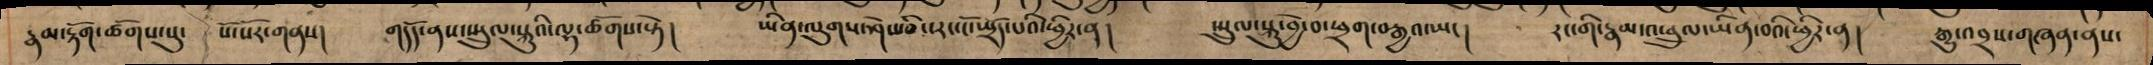རྣམ་རྟོག་ཚོགས་སུ་ སོ་སོར་གནས། གདོད་ནས་སྤྲུལ་སྐུའི་ལྷ་ཚོགས་སྟེ། ཡིན་ལུགས་ཤེས་ཅིང་རང་ངོ་སྤྲོད་པའི་ཕྱིར་ན། སྤྲུལ་སྐུ་བྱེ་བ་ཕྲག་བརྒྱའ་ཡང། རང་གི་རྣམ་འཕྲུལ་ཡིན་བའི་ཕྱིར་ན། རྒྱུ་འབྲས་གཞན་ནས་
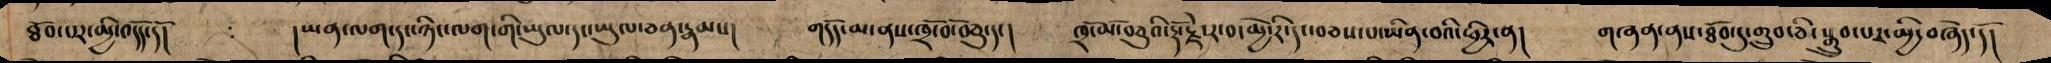ཐོབ་པར་མྱི་འདོད་དོ། །ཡན་ལག་དང་ཉིང་ལག་གི་ཡུལ་དང་ཡུལ་ཅན་རྣམས། གདོད་མ་ནས་ཁྲོ་བོ་བཅུ་དང། ཁྲོ་མོ་བཅུའི་རྡོ་རྗེ་ར་བ་མྱེ་རི་དང་བཅས་པ་ཡིན་བའི་ཕྱིར་ན། གཞན་ནས་ཐོབ་དུ་གྲུབ་ཅི་སྒྲུབ་པར་མྱི་བཞེད་དོ།
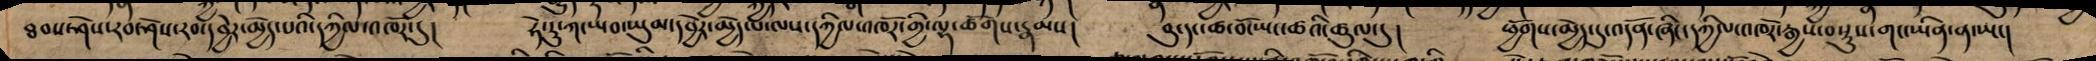ཐབས་ཤེས་རབ་ཤེས་དབྱེར་མྱེད་པའི་དཀྱིལ་འཁོར་དུ། ཧེ་རུ་ཀ་ཡབ་ཡུམ་དབྱེར་མྱེད་པ་ལས་དཀྱིལ་འཁོར་གྱི་ལྷ་ཚོགས་རྣམས། བུ་དང་ཚ་བོ་ཡང་ཚའི་ཚུལ་དུ། ཕྱོགས་མྱེད་དུ་འདོན་ཞིང་དཀྱིལ་འཁོར་རྒྱས་བསྡུས་གང་ཡིན་ན་ཡང།
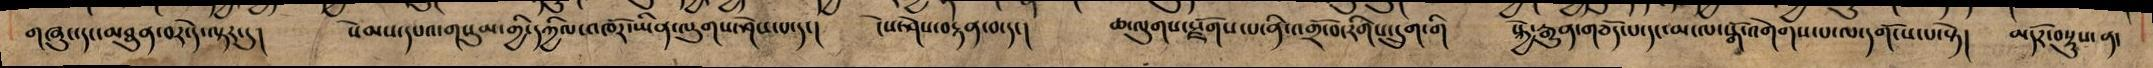གཞུང་དང་མཐུན་བར་དེ་ལྟར་དུ། སེམས་དཔའ་གསུམ་གྱི་དཀྱིལ་འཁོར་ཡིན་ལུགས་ཤེས་པ་དང། ངེས་ཤེས་བརྟན་བ་དང། ཆ་ལུགས་སྫོགས་པ་ནི་འགྲོ་བ་རིགས་དྲུག་གི སྐྱེ་རྒྱུན་གཅོད་པ་དང་མ་ལ་སྒོ་འགེགས་པ་ལ་དགོངས་པ་སྟེ། མདོར་བསྡུས་ན་
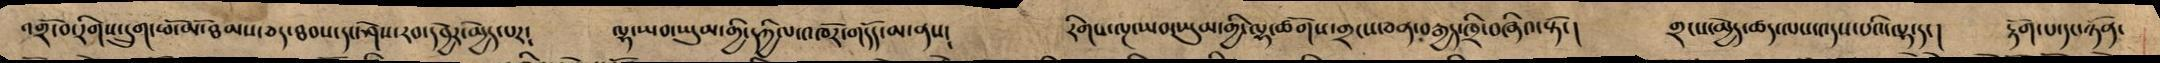འགྲོ་བ་རིགས་དྲུག་ཕོ་མོ་ཐམས་ཅད་དང་ཤེས་རབ་དབྱེར་མྱེད་པར། ལྷ་ཡབ་ཡུམ་གྱི་དཀྱིལ་འཁོར་གདོད་མ་ནས། རིགས་ལྔ་ཡབ་ཡུམ་གྱི་ལྷ་ཚོགས་གྲངས་ཅན་བརྒྱད་ཁྲི་བཞིའ་སྟོང། གྲངས་མྱེད་ཚད་ལས་འདས་པའི་ལྷ་དང། རྟོག་པ་དང་ཉོན་
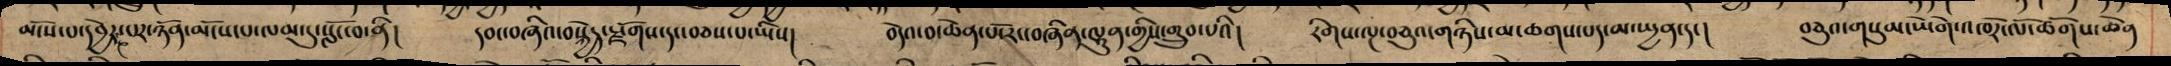མོངས་པ་དབྱེར་པར་ཉོན་མོངས་པ་ལམ་དུ་སློང་བ་ནི། དབང་བཞིའ་བསྐྱེད་སྫོགས་དང་བཅས་པ་ཡིས། བདེའ་བ་ཆེན་པོ་རང་བཞིན་ལྷུན་གྱིས་གྲུབ་པའི། རིགས་ལྔ་བཅུའ་གཉིས་མ་ཆགས་པད་མ་སྤྱན་དང། བཅུའ་གསུམ་ཡེགེ་འཁོར་ལོ་ཚོགས་ཆེན
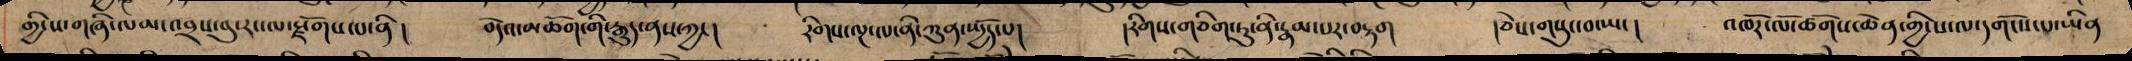གྱི་ས་གཞི་ལམ་འབྲས་བུ་རང་ལ་སྫོགས་པ་ནི། བདེའ་མཆོག་གི་རྒྱུད་ནས་ཀྱང། རིགས་ལྔ་ལ་ནི་ཀུན་སྤྱོད་པ། །རིགས་གཅིག་ཏུ་ནི་རྣམ་པར་བརྟག །ཅེས་གསུང་བ་ཡང། འཁོར་ལོ་ཚོགས་ཆེན་གྱི་ས་ལ་དགོངས་པ་ཡིན
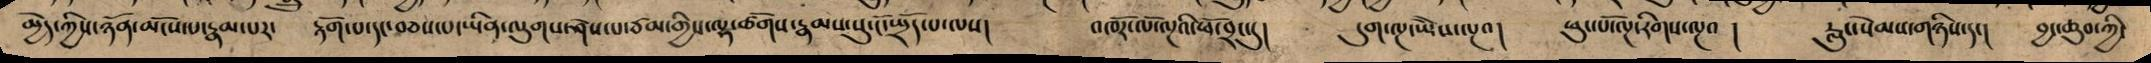མྱེད་ཀྱིས་ཉོན་མོངས་པ་རྣམ་པར་ རྟོག་པ་དང་བཅས་པ་ཡིན་ལུགས་ཤེས་པ་ཙམ་གྱིས་ལྷ་ཚོགས་རྣམས་སུ་སྤྲོད་པ་ལས། འཁོར་ལོ་ལྔའི་ཕོ་བྲང་དུ། དུག་ལྔ་ཡཻས་ལྔའ། ཕུང་པོ་ལྔ་རིགས་ལྔའ། རླུང་སེམས་གཉིས་དང། བྱང་ཆུབ་ཀྱི་
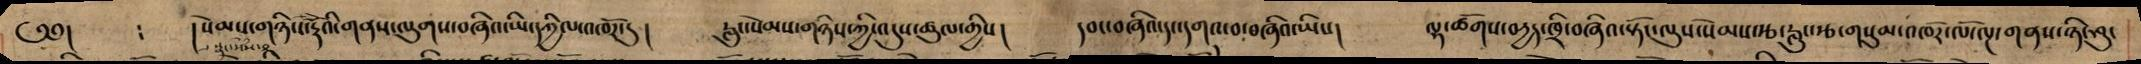༄༅། །སེམས་གཉིས་རྟའི་གནས་ལུགས་བཞིའ་ཡི་དཀྱིལ་འཁོར་དུ། རླུང་སེམས་གཉིས་ཀྱི་འདུས་ཚུལ་གྱིས། དབང་བཞིའ་དང་དགའ་བ་བཞིའ་ཡིས། ལྷ་ཚོགས་བརྱད་ཁྲི་བཞིའ་སྟོང་ལུས་སེམས་རྩ་རླུང་རྩ་གསུམ་འཁོར་ལོ་ལྔ་གནས་ཉི་ཤུ་
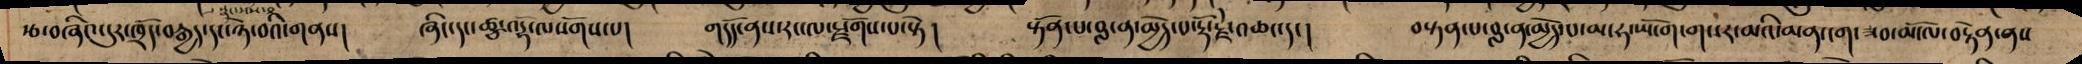རྩ་བཞིའ་དུར་ཁྲོད་བརྒྱད་དང་ཉེ་བའི་གནས།    ཞིང་དང་ཚུར་འདྷོ་ལསོགས་པ།   གདོད་ནས་རང་ལ་རྫོགས་པ་སྟེ།   སྟོན་པ་བླ་ན་མྱེད་པ་རྡོ་རྗེ་འཆང་དང།      བསྟན་པ་བླ་ན་མྱེད་པ་མ་ཧ་ཡོ་ག་གསར་མའི་མན་ངག་ཟབ་མོ་ལ་བརྟེན་ནས
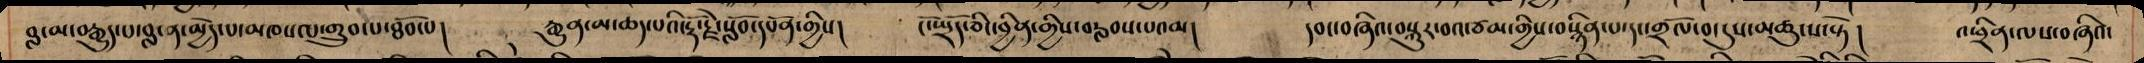བླ་མ་བརྒྱུད་པ་བླ་ན་མྱེད་པ་མཁའ་ལ་གྲུབ་པ་ཐོབ་པ། རྒྱུན་མ་ཆད་པའི་རྡོ་རྗེ་སློབ་དཔོན་གྱིས། ངོ་སྤྲོད་ཅིང་བྱིན་གྱིས་བརླབས་པའམ། དབང་བཞིའ་བསྐུར་བའ་ཙམ་གྱིས་བསྙིན་པ་དང་གྲོལ་བ་དུས་མཚུངས་སྟེ། འཕྲིན་ལས་བཞིའ་
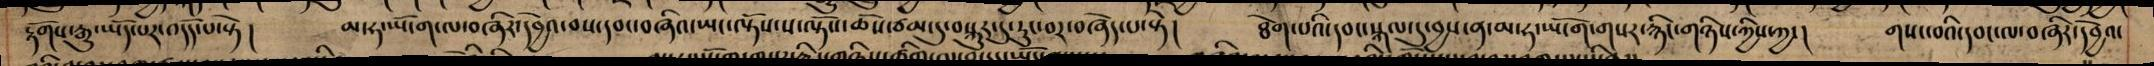རྟོགས་རྒྱུ་ཡོད་པར་འདོད་པ་སྟེ། མ་ཧ་ཡོ་ག་ལ་བཞིར་དབྱེའ་བས་དབང་བཞིའ་ཡང་ལྟོས་ས་ལྟོས་ཆོས་ཙམ་དུ་བསྐུར་དུ་རུང་བར་བཞེད་པ་སྟེ། ཐེག་པའི་དབང་སྐལ་དུ་བྱས་ན་མ་ཧ་ཡོ་ག་གསར་རྙིང་གཉིས་ཀྱིས་ཀྱང། གསང་བའི་དབང་ལ་བཞིར་དབྱེའ་
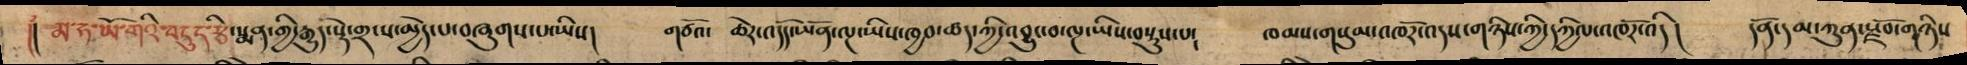།།  མ་ཧ་ཡོ་གའི་བདུད་རྩི་སྨན་གྱི་རྒྱུད་སྡེ་གྲངས་མྱེད་པ་བཞུགས་པ་ཡིས།   གཙོའ་ ཆེར་འདོད་ཡོན་ལྔ་ཡིས་ཁྱབ་ཚད་ཀྱི་འབྱུང་བ་ལྔ་ཡོས་བསྡུས་པ༴   ཁམས་གསུམ་འཁོར་འདས་གཉིས་ཀྱི་དཀྱིལ་འཁོར་འདི།   དོན་དམ་ཀུན་རྫོབ་གཉིས
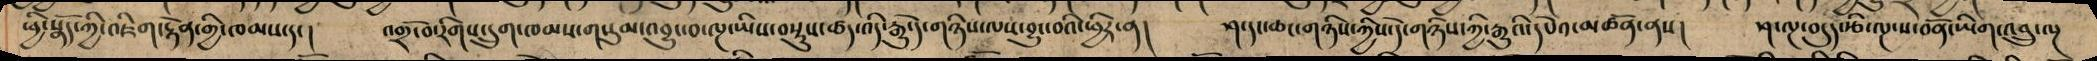ཕྱི་སྣོད་ཀྱི་འཇིག་རྟེན་གྱི་ཁམས་དང། འགྲོ་བ་རིགས་དྲུག་ཁམས་གསུམ་འབྱུང་བ་ལྔ་ཡིས་བསྡུས་ཚད་འདི་རྒྱུ་དེ་གཉིས་ལས་བྱུང་བའི་ཕྱིར་ན། ཤ་དང་ཆང་གཉིས་ཀྱིས་དེ་གཉིས་ཀྱི་རྒྱུའི་དཔེའ་མཚོན་ནས། ཤ་ལྔ་བདུད་རྩི་ལྔ་ས་བོན་ཡིག་འབྲུ་ལྔ
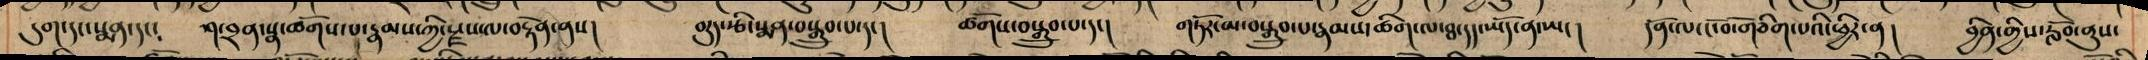དུག་དང་སྨན་དང༴ ཤ་བྲབ་སྣ་ཚོགས་པ་རྣམས་ཀྱི་སྫས་ལ་བརྟེན་ནས། བདུད་རྩི་སྨན་བསྒྲུབ་པ་དང། ཚོགས་བསྒྲུབ་པ་དང། གཏོར་མ་བསྒྲུབ་པ་རྣམས་ཚིག་ལ་ཐ་དད་ཡོད་ན་ཡང། དོན་ལ་ངོ་བོ་གཅིག་པའི་ཕྱིར་ན། བྱིན་གྱིས་རློབ་ནུས་
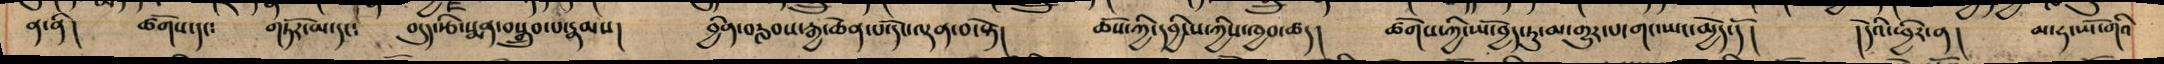ན་ནི། ཚོགས་དང༴ གཏོར་མ་དང༴ བདུད་རྩི་སྨན་བསྒྲུབ་པ་རྣམས། བྱིན་བརླབས་རྒྱ་ཆེན་པོ་དང་ལྡན་བ་སྟེ། ཆོས་ཀྱི་དབྱིངས་ཀྱིས་ཁྱབ་ཚད། ཚོགས་ཀྱི་ཡོ་བྱད་ཏུ་མ་གྱུར་པ་གང་ཡང་མྱེད་དོ། །དེའི་ཕྱིར་ན། མ་ཧ་ཡོ་གའི
